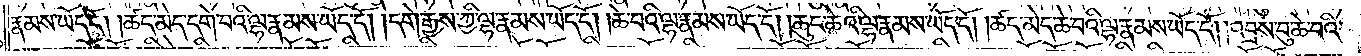རྣམས་ཡོད་དོ། །ཚད་མེད་དགེ་བའི་ལྷ་རྣམས་ཡོད་དོ། །དགེ་རྒྱས་ཀྱི་ལྷ་རྣམས་ཡོད་དོ། །ཆེ་བའི་ལྷ་རྣམས་ཡོད་དོ། །ཆུང་ཆེའི་ལྷ་རྣམས་ཡོད་དོ། །ཚད་མེད་ཆེ་བའི་ལྷ་རྣམས་ཡོད་དོ། །འབྲས་བུ་ཆེ་བའི་
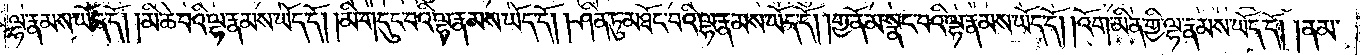ལྷ་རྣམས་ཡོད་དོ། །མི་ཆེ་བའི་ལྷ་རྣམས་ཡོད་དོ། །མི་གདུང་བའི་ལྷ་རྣམས་ཡོད་དོ། །ཤིན་ཏུ་མཐོང་བའི་ལྷ་རྣམས་ཡོད་དོ། །གྱ་ནོམ་སྣང་བའི་ལྷ་རྣམས་ཡོད་དོ། །འོག་མིན་གྱི་ལྷ་རྣམས་ཡོད་དོ། །ནམ་
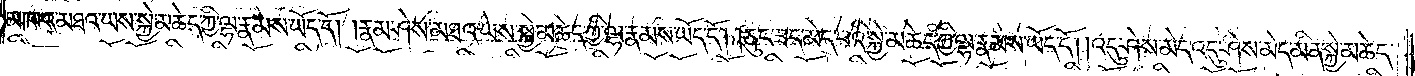མཁའ་མཐའ་ཡས་སྐྱེ་མཆེད་ཀྱི་ལྷ་རྣམས་ཡོད་དོ། །རྣམ་ཤེས་མཐའ་ཡས་སྐྱེ་མཆེད་ཀྱི་ལྷ་རྣམས་ཡོད་དོ། །ཅུང་ཟད་མེད་པའི་སྐྱེ་མཆེད་ཀྱི་ལྷ་རྣམས་ཡོད་དོ། །འདུ་ཤེས་མེད་འདུ་ཤེས་མེད་མིན་སྐྱེ་མཆེད་
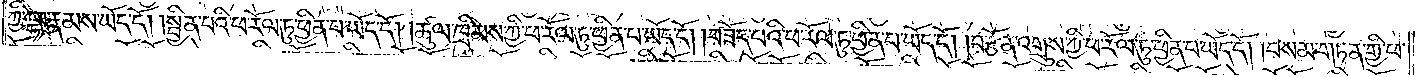ཀྱི་ལྷ་རྣམས་ཡོད་དོ། །སྦྱིན་པའི་ཕ་རོལ་ཏུ་ཕྱིན་པ་ཡོད་དོ། །ཚུལ་ཁྲིམས་ཀྱི་ཕ་རོལ་ཏུ་ཕྱིན་པ་ཡོད་དོ། །བཟོད་པའི་ཕ་རོལ་ཏུ་ཕྱིན་པ་ཡོད་དོ། །བརྩོན་འགྲུས་ཀྱི་ཕ་རོལ་ཏུ་ཕྱིན་པ་ཡོད་དོ། །བསམ་གཏན་གྱི་ཕ་
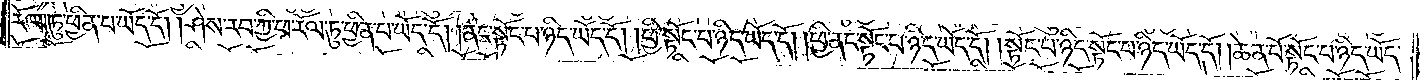རོལ་ཏུ་ཕྱིན་པ་ཡོད་དོ། །ཤེས་རབ་ཀྱི་ཕ་རོལ་ཏུ་ཕྱིན་པ་ཡོད་དོ། །ནང་སྟོང་པ་ཉིད་ཡོད་དོ། ཕྱི་སྟོང་པ་ཉིད་ཡོད་དོ། །ཕྱི་ནང་སྟོང་པ་ཉིད་ཡོད་དོ། །སྟོང་པ་ཉིད་སྟོང་པ་ཉིད་ཡོད་དོ། །ཆེན་པོ་སྟོང་པ་ཉིད་ཡོད་
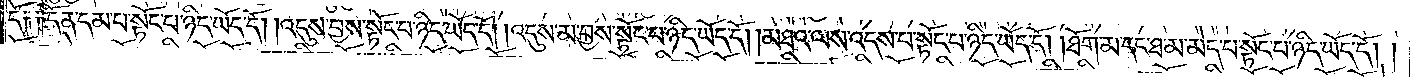དོ༑ ༑དོན་དམ་པ་སྟོང་པ་ཉིད་ཡོད་དོ། །འདུས་བྱས་སྟོང་པ་ཉིད་ཡོད་དོ། །འདུས་མ་བྱས་སྟོང་པ་ཉིད་ཡོད་དོ། །མཐའ་ལས་འདས་པ་སྟོང་པ་ཉིད་ཡོད་དོ། །ཐོག་མ་དང་ཐ་མ་མེད་པ་སྟོང་པ་ཉིད་ཡོད་དོ། །
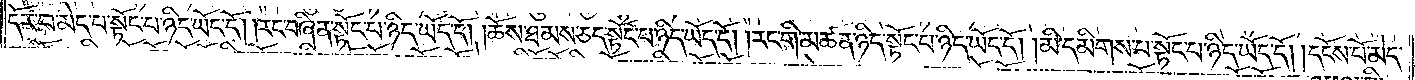དོར་བ་མེད་པ་སྟོང་པ་ཉིད་ཡོད་དོ། །རང་བཞིན་སྟོང་པ་ཉིད་ཡོད་དོ། །ཆོས་ཐམས་ཅད་སྟོང་པ་ཉིད་ཡོད་དོ། །རང་གི་མཚན་ཉིད་སྟོང་པ་ཉིད་ཡོད་དོ། །མི་དམིགས་པ་སྟོང་པ་ཉིད་ཡོད་དོ། །དངོས་པོ་མེད་
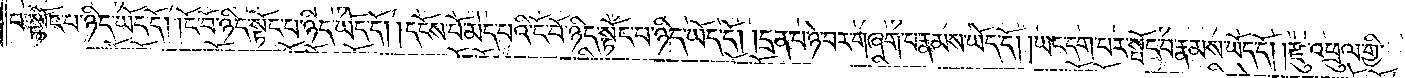པ་སྟོང་པ་ཉིད་ཡོད་དོ། །ངོ་བོ་ཉིད་སྟོང་པ་ཉིད་ཡོད་དོ། །དངོས་པོ་མེད་པའི་ངོ་བོ་ཉིད་སྟོང་པ་ཉིད་ཡོད་དོ། །དྲན་པ་ཉེ་བར་གཞག་པ་རྣམས་ཡོད་དོ། །ཡང་དག་པར་སྤོང་བ་རྣམས་ཡོད་དོ། །རྫུ་འཕྲུལ་གྱི་
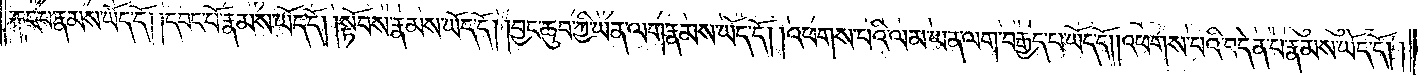རྐང་པ་རྣམས་ཡོད་དོ། །དབང་པོ་རྣམས་ཡོད་དོ། །སྟོབས་རྣམས་ཡོད་དོ། །བྱང་ཆུབ་ཀྱི་ཡན་ལག་རྣམས་ཡོད་དོ། །འཕགས་པའི་ལམ་ཡན་ལག་བརྒྱད་པ་ཡོད་དོ། །འཕགས་པའི་བདེན་པ་རྣམས་ཡོད་དོ། །
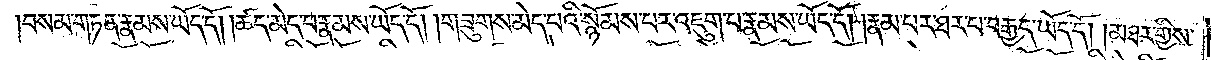བསམ་གཏན་རྣམས་ཡོད་དོ། །ཚད་མེད་པ་རྣམས་ཡོད་དོ། །གཟུགས་མེད་པའི་སྙོམས་པར་འཇུག་པ་རྣམས་ཡོད་དོ། །རྣམ་པར་ཐར་པ་བརྒྱད་ཡོད་དོ། །མཐར་གྱིས་
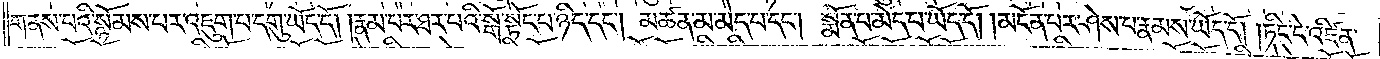གནས་པའི་སྙོམས་པར་འཇུག་པ་དགུ་ཡོད་དོ། །རྣམ་པར་ཐར་པའི་སྒོ་སྟོང་པ་ཉིད་དང༌། མཚན་མ་མེད་པ་དང༌། སྨོན་པ་མེད་པ་ཡོད་དོ། །མངོན་པར་ཤེས་པ་རྣམས་ཡོད་དོ། །ཏིང་ངེ་འཛིན་
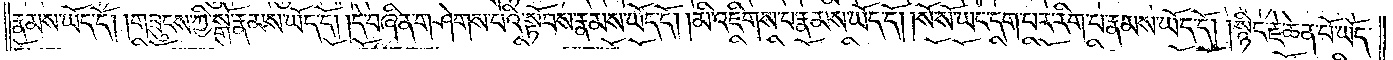རྣམས་ཡོད་དོ། །གཟུངས་ཀྱི་སྒོ་རྣམས་ཡོད་དོ། །དེ་བཞིན་གཤེགས་པའི་སྟོབས་རྣམས་ཡོད་དོ། །མི་འཇིགས་པ་རྣམས་ཡོད་དོ། །སོ་སོ་ཡང་དག་པར་རིག་པ་རྣམས་ཡོད་དོ། །སྙིང་རྗེ་ཆེན་པོ་ཡོད་
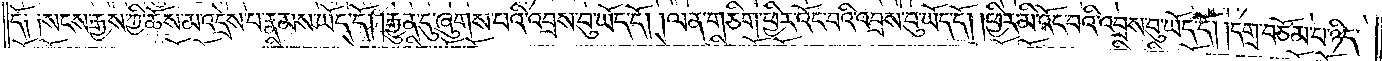དོ༑ ༑སངས་རྒྱས་ཀྱི་ཆོས་མ་འདྲེས་པ་རྣམས་ཡོད་དོ། །རྒྱུན་དུ་ཞུགས་པའི་འབྲས་བུ་ཡོད་དོ། །ལན་གཅིག་ཕྱིར་འོང་བའི་འབྲས་བུ་ཡོད་དོ། །ཕྱིར་མི་འོང་བའི་འབྲས་བུ་ཡོད་དོ། །དགྲ་བཅོམ་པ་ཉིད་
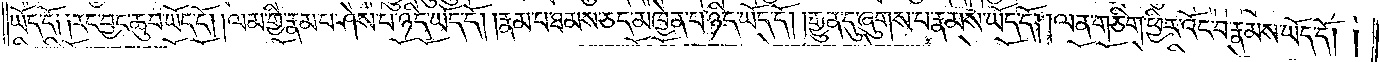ཡོད་དོ། །རང་བྱང་ཆུབ་ཡོད་དོ། །ལམ་གྱི་རྣམ་པ་ཤེས་པ་ཉིད་ཡོད་དོ། །རྣམ་པ་ཐམས་ཅད་མཁྱེན་པ་ཉིད་ཡོད་དོ། །རྒྱུན་དུ་ཞུགས་པ་རྣམས་ཡོད་དོ། །ལན་གཅིག་ཕྱིར་འོང་བ་རྣམས་ཡོད་དོ། །
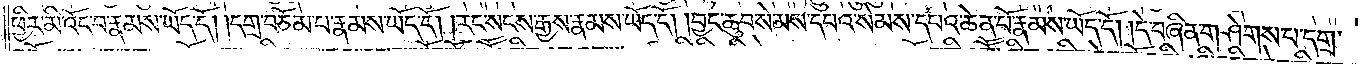ཕྱིར་མི་འོང་བ་རྣམས་ཡོད་དོ། །དགྲ་བཅོམ་པ་རྣམས་ཡོད་དོ། །རང་སངས་རྒྱས་རྣམས་ཡོད་དོ། །བྱང་ཆུབ་སེམས་དཔའ་སེམས་དཔའ་ཆེན་པོ་རྣམས་ཡོད་དོ། །དེ་བཞིན་གཤེགས་པ་དགྲ་
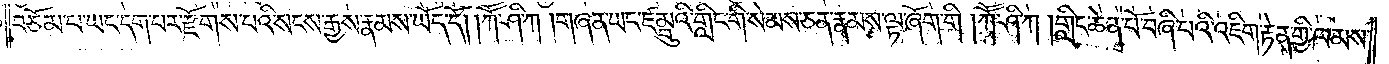བཅོམ་པ་ཡང་དག་པར་རྫོགས་པའི་སངས་རྒྱས་རྣམས་ཡོད་དོ། །ཀཽ་ཤི་ཀ །གཞན་ཡང་ཛམྦུའི་གླིང་གི་སེམས་ཅན་རྣམས་ལྟ་ཞོག་གི །ཀཽ་ཤི་ཀ །གླིང་ཆེན་པོ་བཞི་པའི་འཇིག་རྟེན་གྱི་ཁམས་
